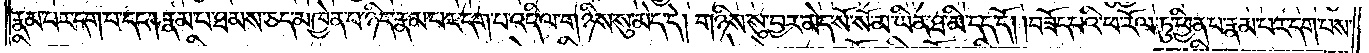རྣམ་པར་དག་པ་དང༌། རྣམ་པ་ཐམས་ཅད་མཁྱེན་པ་ཉིད་རྣམ་པར་དག་པ་འདི་ལ་གཉིས་སུ་མེད་དེ། གཉིས་སུ་བྱར་མེད་སོ་སོ་མ་ཡིན་ཐ་མི་དད་དོ། །བཟོད་པའི་ཕ་རོལ་ཏུ་ཕྱིན་པ་རྣམ་པར་དག་པས་
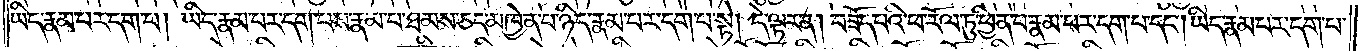ཡིད་རྣམ་པར་དག་པ། ཡིད་རྣམ་པར་དག་པས་རྣམ་པ་ཐམས་ཅད་མཁྱེན་པ་ཉིད་རྣམ་པར་དག་པ་སྟེ། དེ་ལྟར་ན། བཟོད་པའི་ཕ་རོལ་ཏུ་ཕྱིན་པ་རྣམ་པར་དག་པ་དང༌། ཡིད་རྣམ་པར་དག་པ་
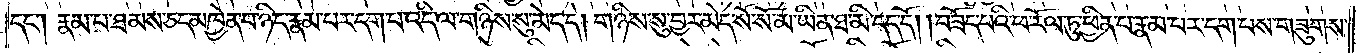དང༌། རྣམ་པ་ཐམས་ཅད་མཁྱེན་པ་ཉིད་རྣམ་པར་དག་པ་འདི་ལ་གཉིས་སུ་མེད་དེ། གཉིས་སུ་བྱར་མེད་སོ་སོ་མ་ཡིན་ཐ་མི་དད་དོ། །བཟོད་པའི་ཕ་རོལ་ཏུ་ཕྱིན་པ་རྣམ་པར་དག་པས་གཟུགས་
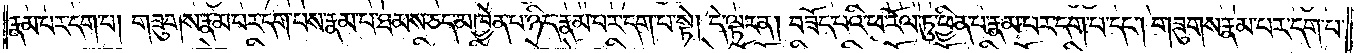རྣམ་པར་དག་པ། གཟུགས་རྣམ་པར་དག་པས་རྣམ་པ་ཐམས་ཅད་མཁྱེན་པ་ཉིད་རྣམ་པར་དག་པ་སྟེ། དེ་ལྟར་ན། བཟོད་པའི་ཕ་རོལ་ཏུ་ཕྱིན་པ་རྣམ་པར་དག་པ་དང༌། གཟུགས་རྣམ་པར་དག་པ་
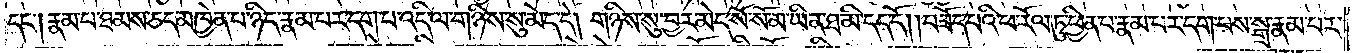དང༌། རྣམ་པ་ཐམས་ཅད་མཁྱེན་པ་ཉིད་རྣམ་པར་དག་པ་འདི་ལ་གཉིས་སུ་མེད་དེ། གཉིས་སུ་བྱར་མེད་སོ་སོ་མ་ཡིན་ཐ་མི་དད་དོ། །བཟོད་པའི་ཕ་རོལ་ཏུ་ཕྱིན་པ་རྣམ་པར་དག་པས་སྒྲ་རྣམ་པར་
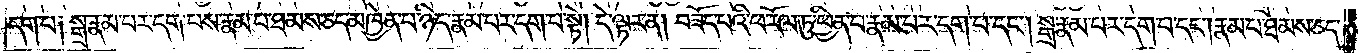དག་པ༑ སྒྲ་རྣམ་པར་དག་པས་རྣམ་པ་ཐམས་ཅད་མཁྱེན་པ་ཉིད་རྣམ་པར་དག་པ་སྟེ། དེ་ལྟར་ན། བཟོད་པའི་ཕ་རོལ་ཏུ་ཕྱིན་པ་རྣམ་པར་དག་པ་དང༌། སྒྲ་རྣམ་པར་དག་པ་དང༌། རྣམ་པ་ཐམས་ཅད་
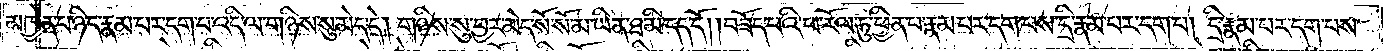མཁྱེན་པ་ཉིད་རྣམ་པར་དག་པ་འདི་ལ་གཉིས་སུ་མེད་དེ། གཉིས་སུ་བྱར་མེད་སོ་སོ་མ་ཡིན་ཐ་མི་དད་དོ། །བཟོད་པའི་ཕ་རོལ་ཏུ་ཕྱིན་པ་རྣམ་པར་དག་པས་དྲི་རྣམ་པར་དག་པ། དྲི་རྣམ་པར་དག་པས་
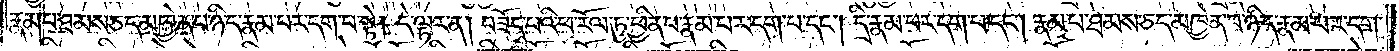རྣམ་པ་ཐམས་ཅད་མཁྱེན་པ་ཉིད་རྣམ་པར་དག་པ་སྟེ། དེ་ལྟར་ན། བཟོད་པའི་ཕ་རོལ་ཏུ་ཕྱིན་པ་རྣམ་པར་དག་པ་དང༌། དྲི་རྣམ་པར་དག་པ་དང༌། རྣམ་པ་ཐམས་ཅད་མཁྱེན་པ་ཉིད་རྣམ་པར་དག་
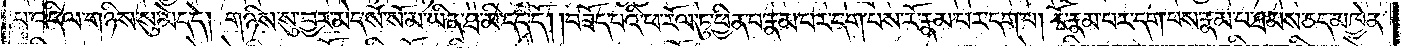པ་འདི་ལ་གཉིས་སུ་མེད་དེ། གཉིས་སུ་བྱར་མེད་སོ་སོ་མ་ཡིན་ཐ་མི་དད་དོ། །བཟོད་པའི་ཕ་རོལ་ཏུ་ཕྱིན་པ་རྣམ་པར་དག་པས་རོ་རྣམ་པར་དག་པ། རོ་རྣམ་པར་དག་པས་རྣམ་པ་ཐམས་ཅད་མཁྱེན་
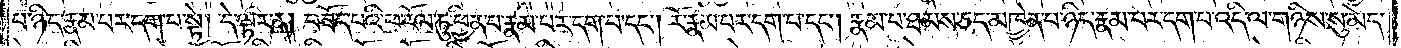པ་ཉིད་རྣམ་པར་དག་པ་སྟེ། དེ་ལྟར་ན། བཟོད་པའི་ཕ་རོལ་ཏུ་ཕྱིན་པ་རྣམ་པར་དག་པ་དང༌། རོ་རྣམ་པར་དག་པ་དང༌། རྣམ་པ་ཐམས་ཅད་མཁྱེན་པ་ཉིད་རྣམ་པར་དག་པ་འདི་ལ་གཉིས་སུ་མེད་
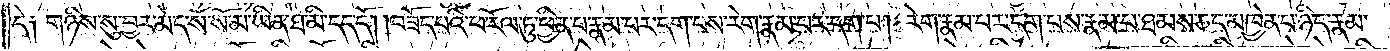དེ༑ གཉིས་སུ་བྱར་མེད་སོ་སོ་མ་ཡིན་ཐ་མི་དད་དོ། །བཟོད་པའི་ཕ་རོལ་ཏུ་ཕྱིན་པ་རྣམ་པར་དག་པས་རེག་པ་རྣམ་པར་དག་པ། རེག་རྣམ་པར་དག་པས་རྣམ་པ་ཐམས་ཅད་མཁྱེན་པ་ཉིད་རྣམ་
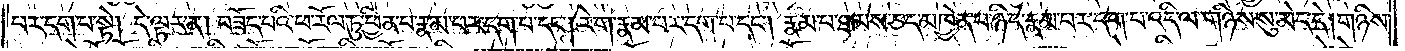པར་དག་པ་སྟེ། དེ་ལྟར་ན། བཟོད་པའི་ཕ་རོལ་ཏུ་ཕྱིན་པ་རྣམ་པར་དག་པ་དང༌། རེག་རྣམ་པར་དག་པ་དང༌། རྣམ་པ་ཐམས་ཅད་མཁྱེན་པ་ཉིད་རྣམ་པར་དག་པ་འདི་ལ་གཉིས་སུ་མེད་དེ། གཉིས་
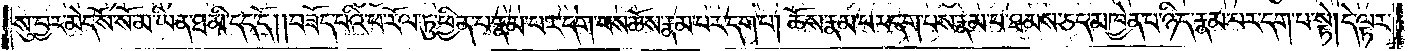སུ་བྱར་མེད་སོ་སོ་མ་ཡིན་ཐ་མི་དད་དོ། བཟོད་པའི་ཕ་རོལ་ཏུ་ཕྱིན་པ་རྣམ་པར་དག་པས་ཆོས་རྣམ་པར་དག་པ། ཆོས་རྣམ་པར་དག་པས་རྣམ་པ་ཐམས་ཅད་མཁྱེན་པ་ཉིད་རྣམ་པར་དག་པ་སྟེ། དེ་ལྟར་
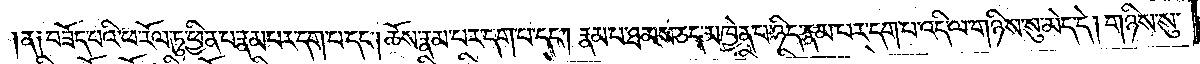ན༑ བཟོད་པའི་ཕ་རོལ་ཏུ་ཕྱིན་པ་རྣམ་པར་དག་པ་དང༌། ཆོས་རྣམ་པར་དག་པ་དང༌། རྣམ་པ་ཐམས་ཅད་མཁྱེན་པ་ཉིད་རྣམ་པར་དག་པ་འདི་ལ་གཉིས་སུ་མེད་དེ། གཉིས་སུ་
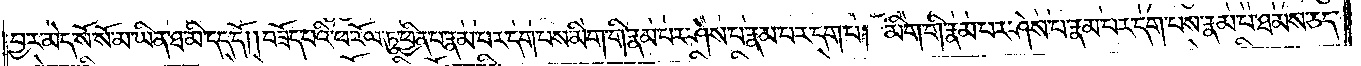བྱར་མེད་སོ་སོ་མ་ཡིན་ཐ་མི་དད་དོ། །བཟོད་པའི་ཕ་རོལ་ཏུ་ཕྱིན་པ་རྣམ་པར་དག་པས་མིག་གི་རྣམ་པར་ཤེས་པ་རྣམ་པར་དག་པ། མིག་གི་རྣམ་པར་ཤེས་པ་རྣམ་པར་དག་པས་རྣམ་པ་ཐམས་ཅད་
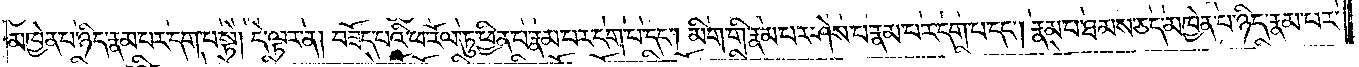མཁྱེན་པ་ཉིད་རྣམ་པར་དག་པ་སྟེ། དེ་ལྟར་ན། བཟོད་པའི་ཕ་རོལ་ཏུ་ཕྱིན་པ་རྣམ་པར་དག་པ་དང༌། མིག་གི་རྣམ་པར་ཤེས་པ་རྣམ་པར་དག་པ་དང༌། རྣམ་པ་ཐམས་ཅད་མཁྱེན་པ་ཉིད་རྣམ་པར་
